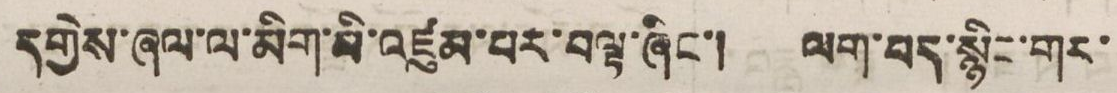དགྱེས་ཞལ་ལ་མིག་མི་འཛུམ་པར་བལྟ་ཞིང་། ལག་བད་སྙིང་གར་
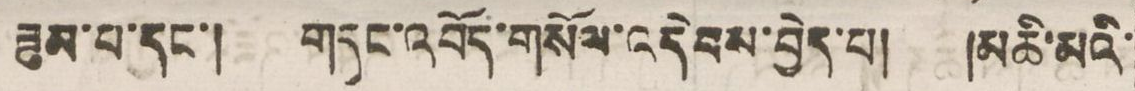ཟུམ་པ་དང་། གདུང་འབོད་གསོལ་འདེབས་བྱེད་བ། །མཆི་མའི་
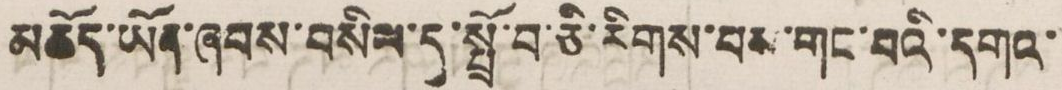མཆོད་ཡོན་ཞབས་བསིལ་དུ་སྤྲོ་བ་ཅི་རིགས་བམ་གང་བའི་དགའ་
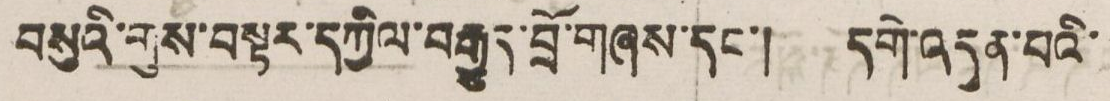བསུའི་གུས་བསྟར་དཀྱིལ་བརྒྱུད་བྲོ་གཞས་དང་། དགེ་འདུན་པའི་
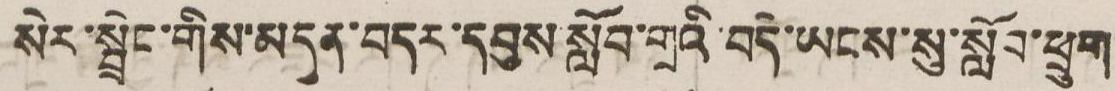སེར་སྦྲིང་གིས་མདུན་བདར་དབུས་སློབ་གྲའི་བདེ་ཡོངས་སུ་སློབ་ཕྲུག
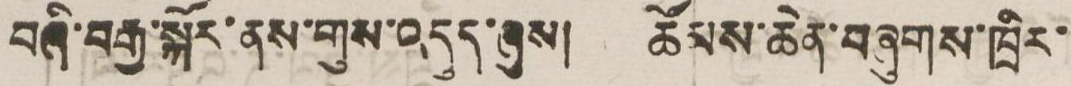བཞི་བརྒྱ་སྐོར་ནས་གུས་འདུད་ཞུས། ཚོམས་ཆེན་བཞུགས་ཁྲིར་
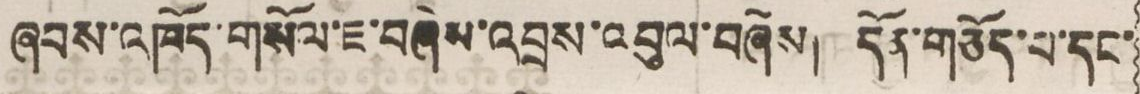ཞབས་འཁོད་གསོལ་ཇ་བཞེས་འབྲས་འབུལ་བཞེས། དོན་གཅོད་པ་དང་
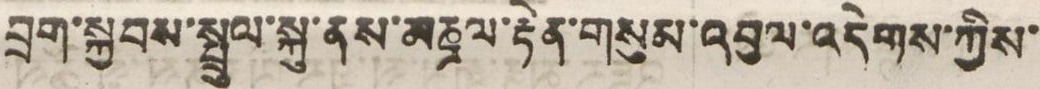བྲག་སྐྱབས་སྤྲུན་སྐུ་ནས་མཎྜལ་རྟེན་གསུམ་འབྱར་འདེབས་ཀྱིས་
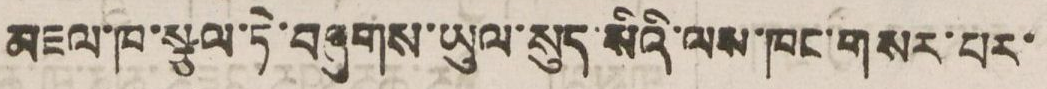འཇལ་ཁ་སྩལ་ཏེ་བཞུགས་ཡུལ་སུད་སིའི་ལས་ཁང་གསར་པར་
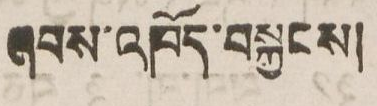ཞབས་འཁོད་བསྐྱབས།
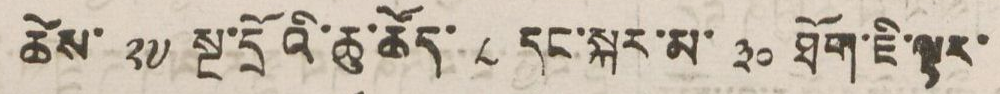ཚེས་ ༢༧ སྔ་དྲོའི་ཆུ་ཚོད་ ༨ དང་སྐར་མ་ ༣༠ ཐོག་ཇི་ལྟར་
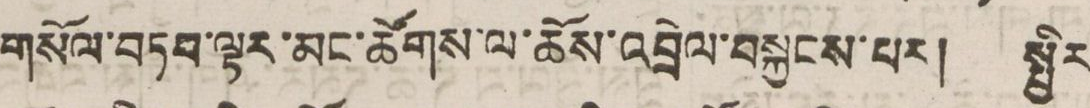གསོལ་བཏབ་ལྟར་མང་ཚོགས་ལ་ཆོས་འབྲེལ་བསྐྱངས་པར། སྤྱིར
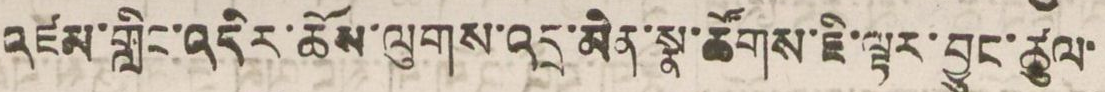འཛམ་གླིང་འདིར་ཆོས་ལུགས་འདྲ་མིན་སྣ་ཚོགས་ཇི་ལྟར་བྱུང་ཚུལ་
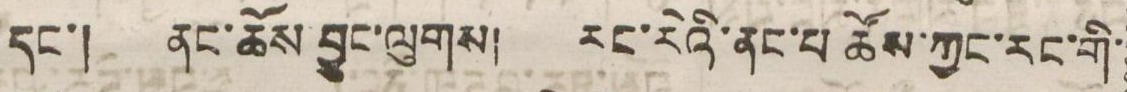དང་། ནང་ཆོས བྱུང་ལུགས། རང་རེའི་ནང་པ་ཆོས་ཀྱང་རང་གི་
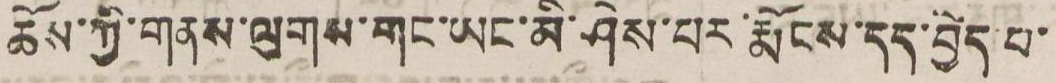ཆོས་ཀྱི་གནས་ལུགས་གང་ཡང་མི་ཤེས་པར་རྨོངས་དད་བྱེད་པ་
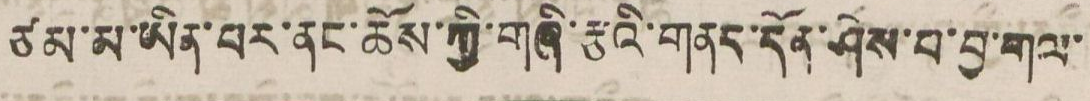ཙམ་མ་ཡིན་པར་ནང་ཆོས་ཀྱི་གཞི་རྩའི་གནད་དོན་ཤེས་བ་བྱ་གལ་
